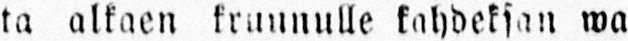ta alkaen kruunulle kahdeksan wa
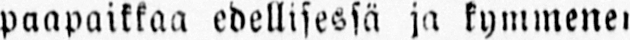paapaikkaa edellisessä ja kymmenen
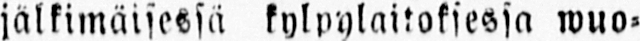jälkimäisessä kylpylaitoksessa wuo-
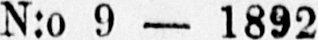N:o 9 — 1892
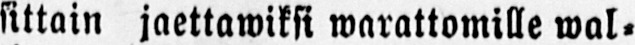sittain jaettawiksi warattomille wal-
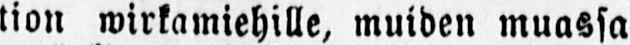tion wirkamiehille, muiden muassa
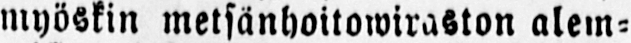myöskin metsänhoitowiraston alem-
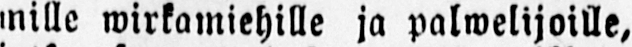mille wirkamiehille ja palwelijoille,
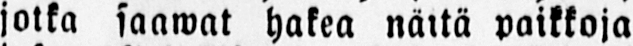jatka saawat hakea näitä paikkoja
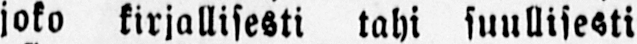joko kirjallisesti tahi suullisesti
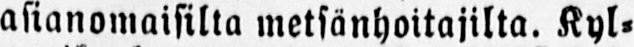asianomaisilta metsänhoitajilta. Kyl-
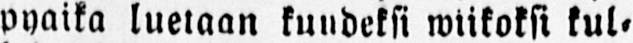pyaika luetaan kuudeksi wiikoksi kul-
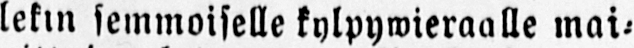lekin semmoiselle kylpywieraalle mai-
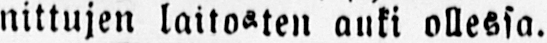nittujen laitosten auki ollessa.
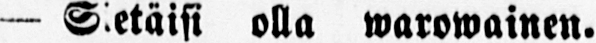— S ietäisi olla warowainen.
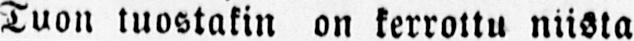Tuon tuostakin on kerrottu niistä
